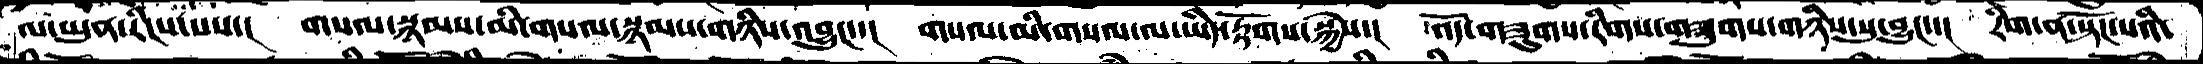ལ་ཡུན་རིངས་པས་།  གསལ་སྙམས་མི་གསལ་སྙམས་གཉིས་འབྱུང་་།  གསལ་མི་གསལ་ལ་ཡིད་རྟོགས་སྐྱེས་།  འོད་གཟུགས་རིགས་གཟུགས་གཉིས་སུ་བྱུང་་།  རིག་ན་སྟོང་པའི་
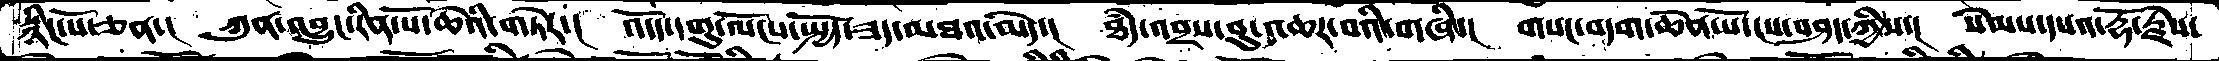སྙིང་པོ་ཅན་།  ཀུན་འབྱུང་རིན་པོ་ཆེའི་གཏེར་།  འདོད་དགུ་ལོངས་སྤྱོད་ཟད་མཐའ་མེད་།  ཐཾད་འབྲས་བུ་འཆར་བའི་གཞི་།  གསང་བདག་ཆེན་པོ་ངས་བཤད་ཀྱིས་།  སེམས་དཔའ་རྡོ་རྗེས་
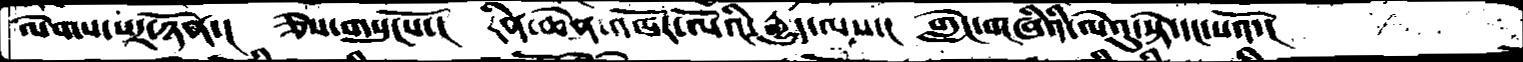ལེགས་པར་ཉོན་།  ཅེས་གསུངསོ་།   རིན་ཆེན་འཁོར་ལོའི་རྒྱུད་ལས་།  གླེང་གཞིའི་ལེའུ་སྟེ་དང་པའོ་།
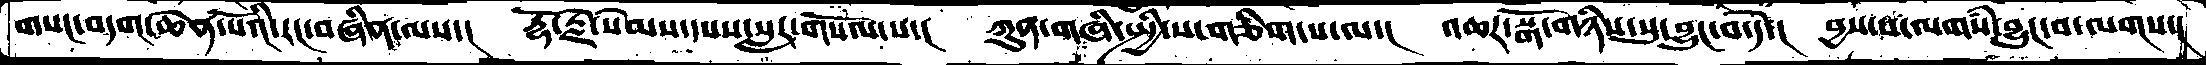གསང་བདག་ཆེན་པོའི་རང་བཞིན་ལས་།  རྡོ་རྗེ་སེམས་དཔས་སླར་གསོལ་པ་།  ཀུན་གཞི་སྤྱི་ས་གཅིག་པ་ལ་།  འཆར་སྒོ་གཉིས་སུ་བྱུང་བ་དེ་།  བྱས་པ་ལགསཾ་བྱུང་བ་ལགས་།
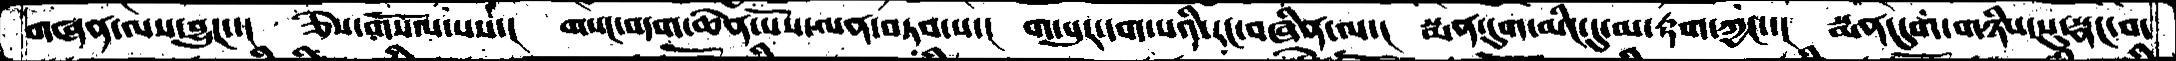གཞན་ལས་བྱུང་་།  ཅེས་གསོལ་པས་།  གསང་བདག་ཆེན་པོས་ལན་བཏབ་པ་།  ག་པུར་དག་པའི་རང་བཞིན་ལ་།  སྨན་དུག་མིང་དུ་མ་རྟག་ཀྱང་་།  སྨན་དུག་གཉིས་སུ་སྣང་བ་
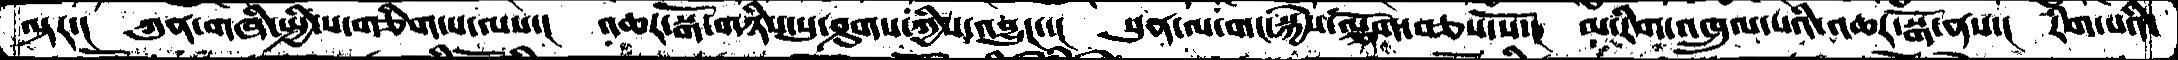ལྟར་།  ཀུན་གཞི་སྤྱི་ས་གཅིག་པ་ལས་།  འཆར་སྒོ་གཉིས་སུ་ཤུགས་ཀྱིས་འབྱུང་་།  སུན་ལ་གང་སྐྱེས་ལྕོག་བཅས་སོ་།  མ་རིག་འཁྲུལ་པའི་འཆར་སྒོ་ནས་།  རིག་པའི་
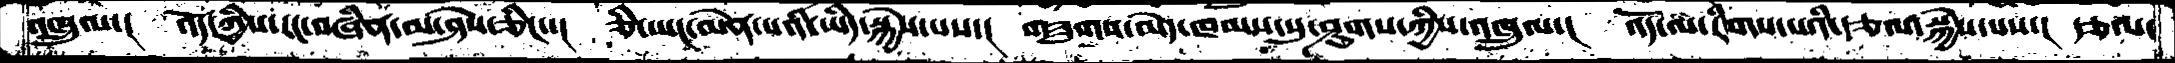འཁྲུལ་།  འདོ་ཀྱིས་རང་བཞིན་མ་ཤེས་ཅིང་་།  ཅི་ཡང་མེན་པའི་ཡིད་སྐྱེས་པས་།  གཟུགས་མེད་ཁམས་སུ་ཤུགས་ཀྱིས་འཁྲུལ་།  འདོ་ལ་རིགས་པའི་རྩལ་སྐྱེས་པས་།  རྩལ་
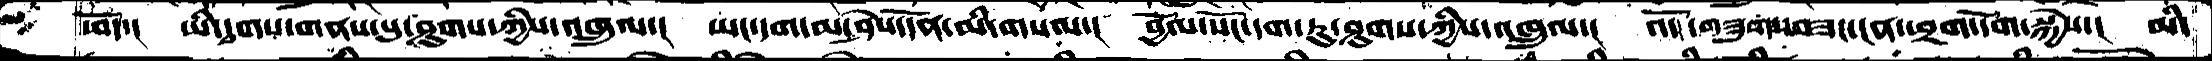ཕོད་།  ཡི་དྭགས་གནས་སུ་ཤུགས་ཀྱིས་འཁྲུལ་།  ཡང་དག་མ་ཤེས་དོན་མི་གསལ་།  བྱོལ་སོང་དག་ཏུ་ཤུགས་ཀྱིས་འཁྲུལ་།  འོད་གཟུགས་བཟང་ངན་ཕྲག་དོག་སྐྱེས་།  མི་
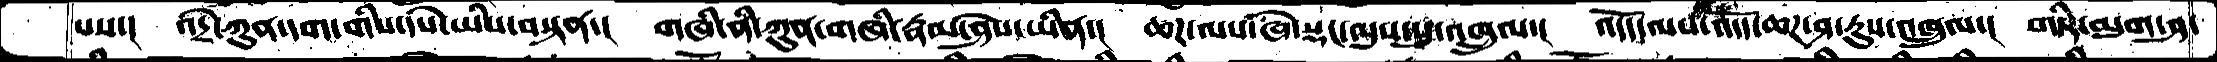པས་།   འདྲེ་ཀུན་དག་གིས་དཔེ་ཡིས་བསྟན་།  གཞི་ནི་ཀུན་གཞི་རྣམ་ཤེས་ཡིན་།  ཆཌ་ལས་ཞེ་སྡང་ལུས་སུ་འཁྲུལ་།  འདོད་ལས་འདོད་ཆཌ་ཤ་རུས་འཁྲུལ་།  གཏི་མུག་ཤ་
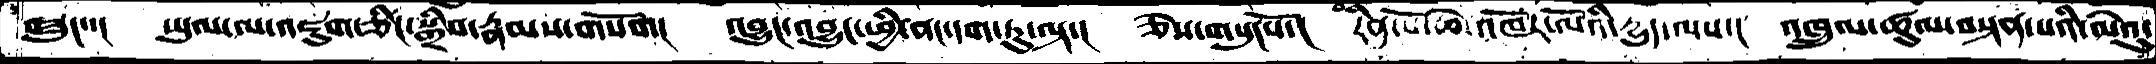བཟུང་་།  ཡུལ་ལ་འཇུག་ཅིང་སྒྲིབ་རྣམས་གསོག།  འབྱུང་འབྱུང་ཕྱི་ནང་དག་ཏུ་ལྟ་།  ཅེས་གསུངསོ་།  རིན་པོ་ཆེ་འཁོར་ལོའི་དྱུད་ལས་།  འཁྲུལ་ཚུལ་བསྟན་པའི་ལེའུ་
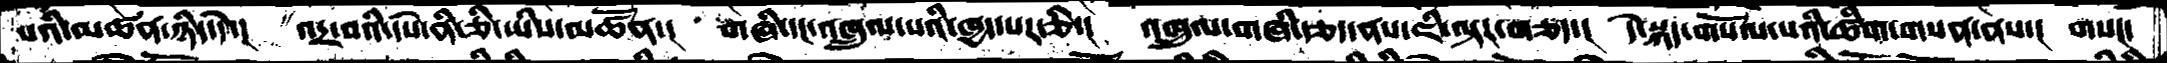པའི་མཚན་ཉིད་དེ་།  འདྲ་བའི་དཔེ་ནི་ཅི་ཡིས་མཚོན་།  གཞི་དང་འཁྲུལ་པའི་ཁྱད་པར་ཅི་།  འཁྲུལ་གཞི་རྩད་ནས་ཇི་ལྟར་གཅད་།  དེ་སྐད་གསོལ་པའི་ཚིག་གསན་ནས་།  གསང་
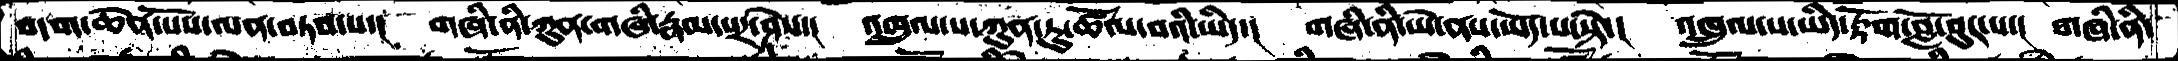བདག་ཆེན་པོས་ལན་བཏབ་པ་།  གཞི་ནི་ཀུན་གཞི་རྣམ་པར་ཤེས་།  འཁྲུལ་པ་ཀུན་ཏུ་ཚོལ་བའི་ཡིད་།  གཞི་ནི་ཡེ་ནས་ཡོད་པ་སྟེ་།  འཁྲུལ་པ་ཡིད་རྟོག་བློ་བུར་པ་།  གཞི་ནི་
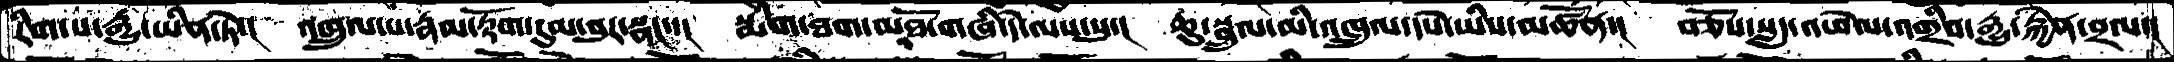རིག་པ་རྒྱུ་ཡིན་ཏེ་།  འཁྲུལ་པ་རྣམ་རྟོག་དུམ་བུར་སྣང་་།  སྨིག་ཐག་མཐོ་གཞི་དེ་ལས་སུ་།  ཆུ་སྦྲུལ་མི་འཁྲུལ་དཔེ་ཡིས་མཚོན་།  བཅོས་སླད་འཕེལ་འགྲིབ་རྒྱུ་རྐྱེན་བྲལ་།
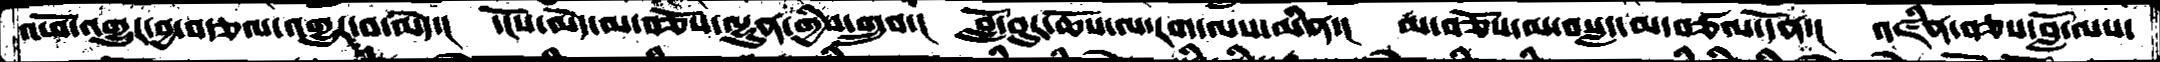འཕོ་འགྱུར་བྱ་བརྩལ་འགྱུར་བ་མེད་།  དངོས་མེད་མ་བཅོས་ལྷུན་གྱིས་གྲུབ་།  བློ་བུར་ཆོས་ལ་རག་ལས་མིན་།  མ་བཅོས་མ་བསླད་མ་བཙལ་དོན་།  འཛིན་བཅས་བློ་ལས་
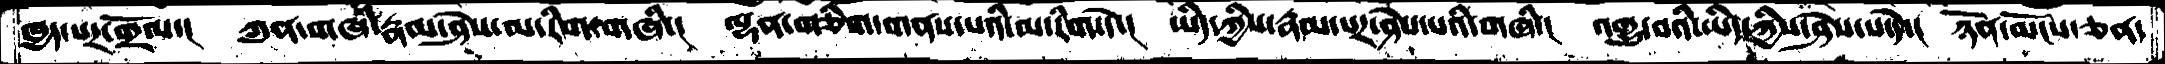ཁྱད་པར་གྲོལ་།  ཀུན་གཞི་རྣམ་ཤེས་མ་རིག་གཞི་།  ལྷན་གཅིག་གནས་པའི་མ་རིག་དེ་།  ཡིད་ཀྱིས་རྣམ་པར་ཤེས་པའི་གཞི་།  འགྱུ་བའི་ཡིད་ཀྱིས་ཤེས་པ་དེ་།  ཉོན་མོངས་ཅན་
